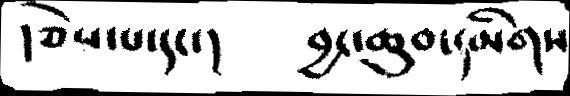།ཅེས་པ་དང་།   བྱང་ཆུབ་དམིགས
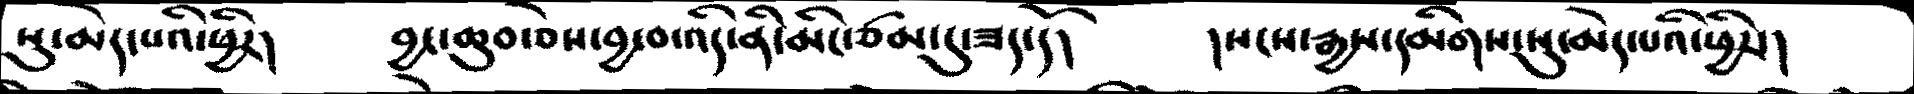སུ་མེད་པའི་ཕྱིར།   བྱང་ཆུབ་ཅེས་བྱ་བ་འདི་ནི་མིང་ཙམ་དུ་ཟད་དོ།   །སངས་རྒྱས་དམིགས་སུ་མེད་པའི་ཕྱིར་།
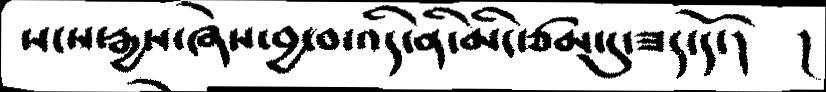སངས་རྒྱས་ཞེས་བྱ་བ་འདི་ནི་མིང་ཙམ་དུ་ཟད་དོ་།  །
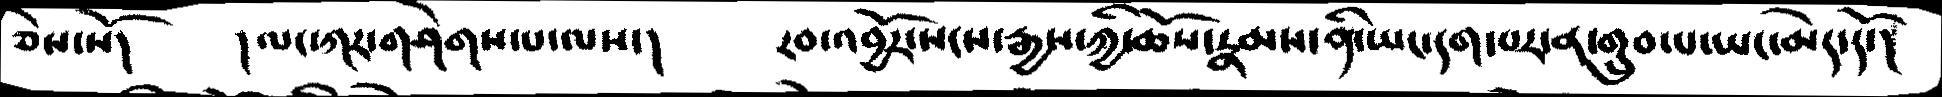ཅེས་སོ།  །ལང་ཀར་གཤེགས་པ་ལས་།   རབ་འབྱོར་སངས་རྒྱས་ཀྱི་ཆོས་རྣམས་ནི་ཡང་དག་པར་ན་གྲུབ་པ་ཡང་མེད་དོ་།
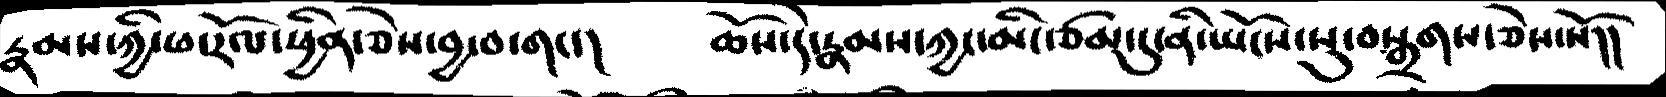རྣམས་ཀྱི་ཕ་རོལ་ཕྱིན་ཅེས་བྱ་བ་གང་།   ཆོས་དེ་རྣམས་ཀྱང་མིང་ཙམ་དུ་ནི་ཡོངས་སུ་བསྒྲགས་ཅེས་སོ།།
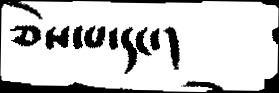ཅེས་པ་དང་།
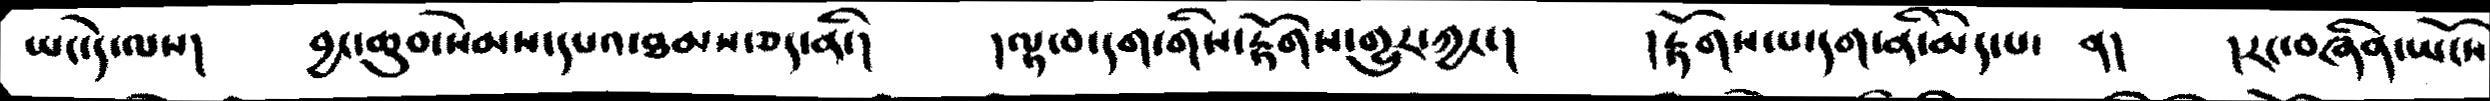ཡང་དེ་ལས།   བྱང་ཆུབ་སེམས་དཔའ་ཐམས་ཅད་ནི་།   །ལྟ་བ་དག་གིས་རྟོགས་གྱུར་ཀྱང་།   །རྟོགས་པ་དག་ནི་མེད་པ་  ན།   །རང་བཞིན་ཡོངས
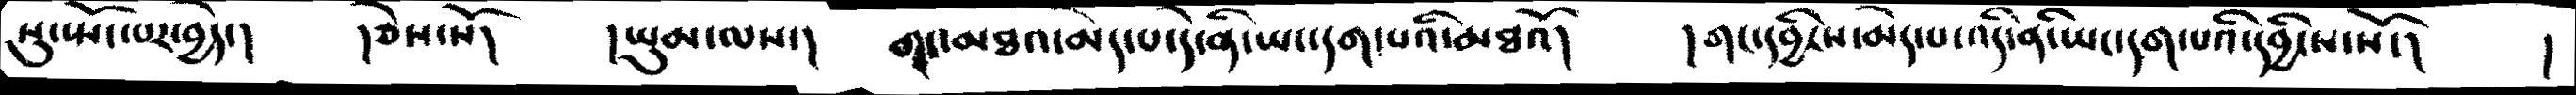སུ་སྤོང་པར་བྱེད་།  །ཅེས་སོ།   །ཡུམ་ལས་།  གང་མཐའ་མེད་པ་དེ་ནི་ཡང་དག་པའི་མཐའོ།  །གང་དབྱིངས་མེད་པ་འདི་ནི་ཡང་དག་པའི་དབྱིངས་སོ་།    །
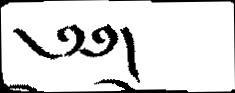༄༅།
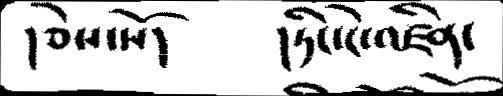།ཅེས་སོ།    །ཏིང་ངེ་འཛིན་
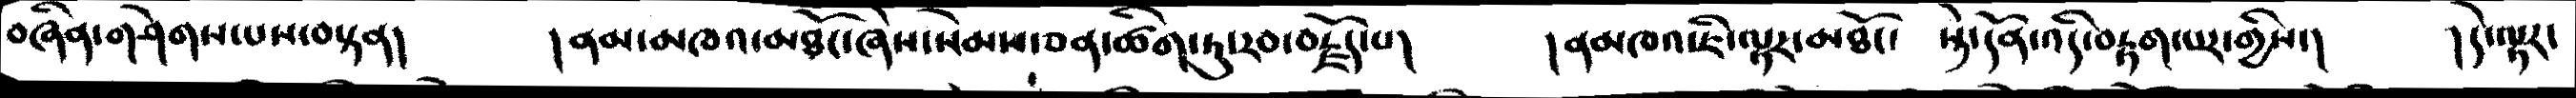བཞིན་གཤེགས་པས་བསྟན།     །ནམ་མཁའ་མཐོང་ཞེས་སེམས་ཅན་ཚིག་ཏུ་རབ་བརྗོདཔ།       །ནམཁའ་ཇི་ལྟར་མཐོང་     སྟེ་དོན་འདི་བརྟག་པར་གྱིས་།      །དེ་ལྟར་
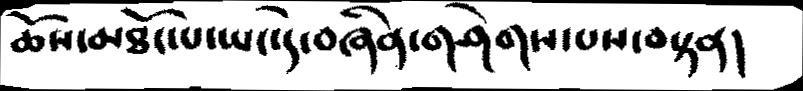ཆོས་མཐོང་པ་ཡང་དེ་བཞིན་གཤེགས་པས་བསྟན།
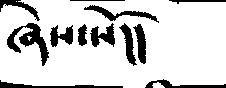ཞེས་སོ།།
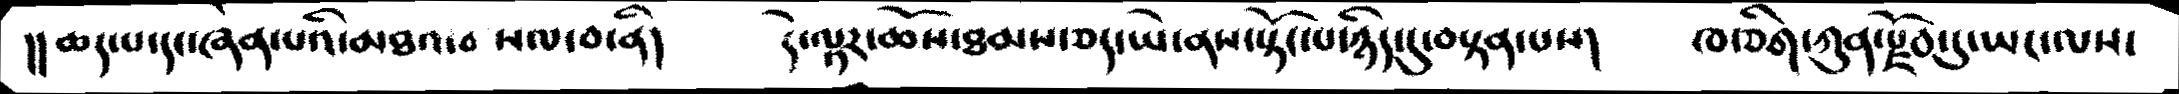།། ཆད་པ་དང་ཞེན་པའི་མཐའ་བ སལ་བ་ནི།      དེ་ལྟར་ཆོས་ཐམས་ཅད་ཡེ་ནས་སྟོང་པ་ཉིད་དུ་བསྟན་པས།    ཁ་ཅིག་ཀུན་སྫོབ་དུ་ཡང་ལས་
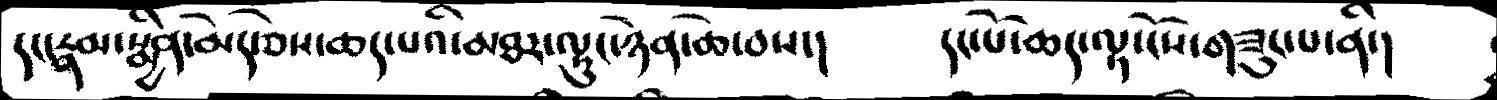དང་རྣམ་སྨྱིན་མེད་ཅེས་ཆད་པའི་མཐར་ལྟུང་ཉེན་ཆེ་བས་།  དང་པོ་ཆད་ལྟ་ངོས་གཟུང་པ་ནི་།
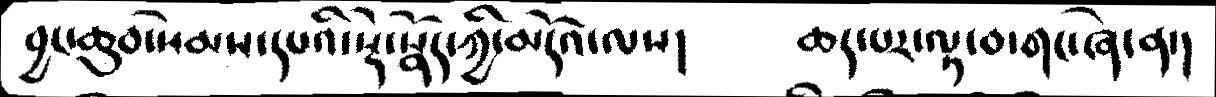བྱང་ཆུབ་སེམས་དཔའི་སྡེ་སྣོད་ཀྱི་མདོའ་ལས།  ཆད་པར་ལྟ་བ་གང་ཞེ་ན་།
